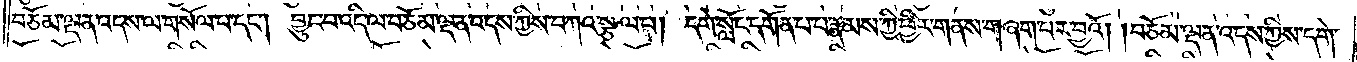བཅོམ་ལྡན་འདས་ལ་གསོལ་པ་དང༌། བྱུང་བ་འདི་ལ་བཅོམ་ལྡན་འདས་ཀྱིས་བཀའ་སྩལ་པ། དགེ་སློང་དགོན་པ་བ་རྣམས་ཀྱི་ཕྱིར་གནས་གཞག་པར་བྱའོ། །བཅོམ་ལྡན་འདས་ཀྱིས་དགེ་
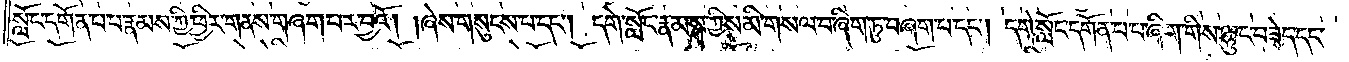སློང་དགོན་པ་པ་རྣམས་ཀྱི་ཕྱིར་གནས་གཞག་པར་བྱའོ། །ཞེས་གསུངས་པ་དང༌། དགེ་སློང་རྣམས་ཀྱིས་མི་གསལ་བ་ཞིག་ཏུ་བཞག་པ་དང༌། དགེ་སློང་དགོན་པ་པ་ཞིག་གིས་ལྷུང་བཟེད་དང་
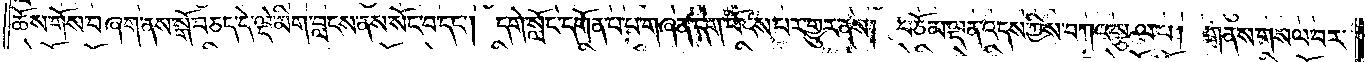ཆོས་གོས་བཞག་ནས་སྒོ་བཅད་དེ་ལྡེ་མིག་བླངས་ནས་སོང་བ་དང༌། དགེ་སློང་དགོན་པ་པ་གཞན་དག་ཕོངས་པར་གྱུར་ནས། བཅོམ་ལྡན་འདས་ཀྱིས་བཀའ་སྩལ་པ། གནས་གསལ་བར་
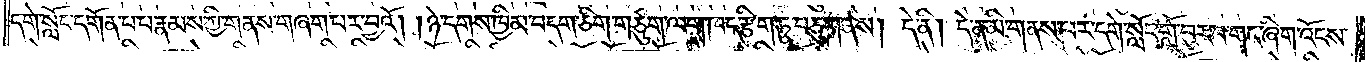དགེ་སློང་དགོན་པ་པ་རྣམས་ཀྱི་གནས་གཞག་པར་བྱའོ། །ཉེ་དགས་ཁྱིམ་བདག་ཅིག་གཙུག་ལག་ཁང་རྩིག་ཏུ་བཅུག་ནས། དེ་ནི། དེ་ན་མི་གནས་པར་དགེ་སློང་གློ་བུར་བ་གང་ཞིག་འོངས་
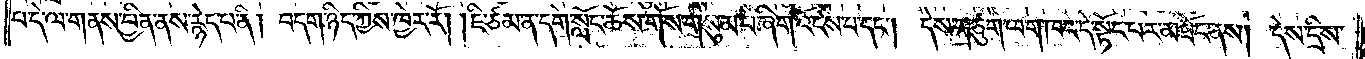པ་དེ་ལ་གནས་བྱིན་ནས་རྙེད་པ་ནི། བདག་ཉིད་ཀྱིས་ཁྱེར་རོ། །ཇི་ཙམ་ན་དགེ་སློང་ཆོས་གོས་གསུམ་པ་ཞིག་འོངས་པ་དང༌། དེས་གཙུག་ལག་ཁང་དེ་སྟོང་པར་མཐོང་ནས། དེས་དྲིས་
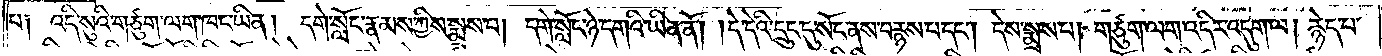པ། འདི་སུའི་གཙུག་ལག་ཁང་ཡིན། དགེ་སློང་རྣམས་ཀྱིས་སྨྲས་པ། དགེ་སློང་ཉེ་དགའི་ཡིན་ནོ། །དེ་དེའི་དྲུང་དུ་སོང་ནས་བརྙས་པ་དང༌། དེས་སྨྲས་པ། གཙུག་ལག་འདིར་འདུག་ལ། རྙེད་པ་
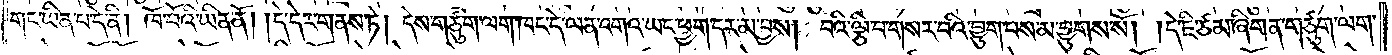གང་ཡིན་པ་དེ་ནི། ཁོ་བོའི་ཡིན་ནོ། །དེ་དེར་གནས་ཏེ། དེས་གཙུག་ལག་ཁང་དེ་ལན་འགའ་ཡང་ཕྱག་དར་མ་བྱས། བའི་ལྕི་བ་གསར་བའི་བྱུག་བསམ་བྱུགས་སོ། །དེ་ཇི་ཙམ་ཞིག་ན་གཙུག་ལག་
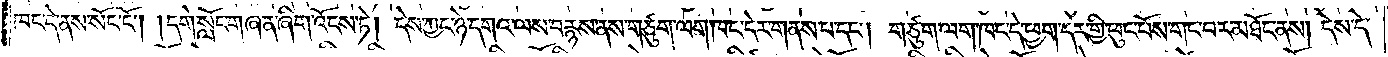ཁང་དེ་ནས་སོང་ངོ༌། །དགེ་སློང་གཞན་ཞིག་འོངས་ཏེ། དེས་ཀྱང་ཉེ་དགའ་ལས་བརྙས་ནས་གཙུག་ལག་ཁང་དེར་གནས་པ་དང༌། གཙུག་ལག་ཁང་དེ་ཕྱག་དར་གྱི་ཕུང་པོས་གང་བར་མཐོང་ནས། དེས་དེ་
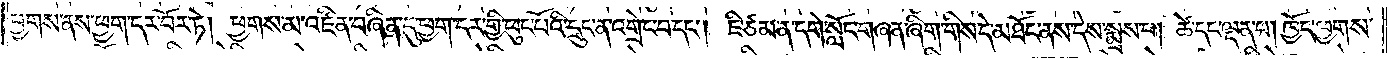ཕྱགས་ནས་ཕྱག་དར་བོར་ཏེ། ཕྱགས་མ་འཛིན་བཞིན་དུ་ཕྱག་དར་གྱི་ཕུང་པོའི་དྲུང་ན་འགྲེང་བ་དང༌། ཇི་ཙམ་ན་དགེ་སློང་གཞན་ཞིག་གིས་དེ་མཐོང་ནས་དེས་སྨྲས་པ། ཚེ་དང་ལྡན་པ། ཁྱོད་ཕྱགས་
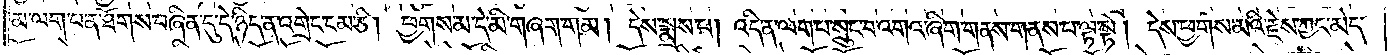མ་ལག་པ་ན་ཐོགས་བཞིན་དུ་དེ་ཉིད་ན་འགྲེང་ངམ་ཅི། ཕྱགས་མ་དེ་མི་གཞག་གམ། དེས་སྨྲས་པ། འདི་ན་ལག་པ་སྲུང་བ་འགའ་ཞིག་གནས་གནས་པ་ལྟ་སྟེ། དེས་ཕྱགས་མའི་རྗེས་ཀྱང་མེད་
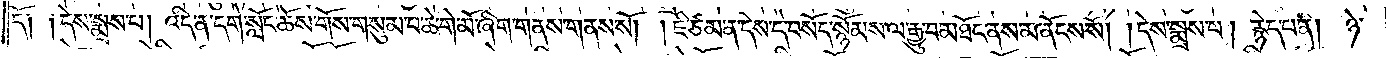དོ༑ ༑དེས་སྨྲས་པ། འདི་ན་དགེ་སློང་ཆོས་གོས་གསུམ་པ་ཆེ་གེ་མོ་ཞིག་གནས་གནས་སོ། །ཇི་ཙམ་ན་དེས་དེ་བསོད་སྙོམས་ལ་རྒྱུ་བ་མཐོང་ནས་མ་ནོངས་སོ། །དེས་སྨྲས་པ། རྙེད་པ་ནི། ཉེ་
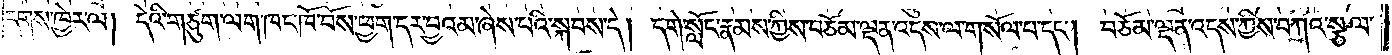དགས་ཁྱེར་ལ། དེའི་གཙུག་ལག་ཁང་ཁོ་བོས་ཕྱག་དར་བྱའམ་ཞེས་པའི་སྐབས་དེ། དགེ་སློང་རྣམས་ཀྱིས་བཅོམ་ལྡན་འདས་ལ་གསོལ་བ་དང༌། བཅོམ་ལྡན་འདས་ཀྱིས་བཀའ་སྩལ་
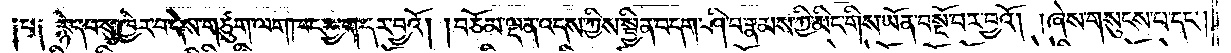༑པ༑ རྙེད་པ་སུ་ཁྱེར་བ་དེས་གཙུག་ལག་ཁང་ཕྱག་དར་བྱའོ། །བཅོམ་ལྡན་འདས་ཀྱིས་སྦྱིན་བདག་ཤི་བ་རྣམས་ཀྱི་མིང་གིས་ཡོན་བསྔོ་བར་བྱའོ། །ཞེས་གསུངས་པ་དང༌།
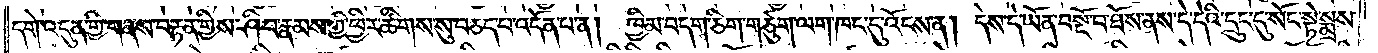དགེ་འདུན་གྱི་གནས་བརྟན་གྱིས་ཤི་བ་རྣམས་ཀྱི་ཕྱིར་ཚིགས་སུ་བཅད་པ་འདོན་པ་ན། ཁྱིམ་བདག་ཅིག་གཙུག་ལག་ཁང་དུ་འོངས་ན། དེས་དེ་ཡོན་བསྔོ་བ་ཐོས་ནས་དེ་དེའི་དྲུང་དུ་སོང་སྟེ་སྨྲས་
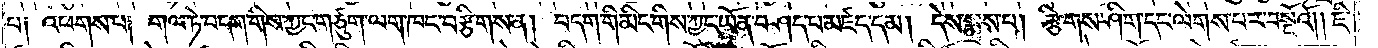པ༑ འཕགས་པ། གལ་ཏེ་བདག་གིས་ཀྱང་གཙུག་ལག་ཁང་བརྩིགས་ན། བདག་གི་མིང་གིས་ཀྱང་ཡོན་བཤད་པ་མཛད་དམ། དེས་སྨྲས་པ། རྩིགས་ཤིག་དང་ལེགས་པར་བསྔོའོ། །ཇི་
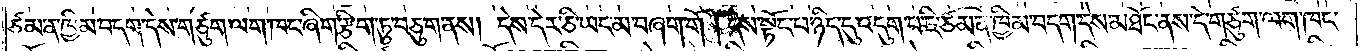ཙམ་ན་ཁྱིམ་བདག་དེས་གཙུག་ལག་ཁང་ཞིག་རྩིག་ཏུ་བཅུག་ནས། དེས་དེར་ཅི་ཡང་མ་བཞག་གོ །དེས་སྟོང་པ་ཉིད་དུ་འདུག་པ་ཇི་ཙམ་ན་ཁྱིམ་བདག་དེས་མཐོང་ནས་དེ་གཙུག་ལག་ཁང་
